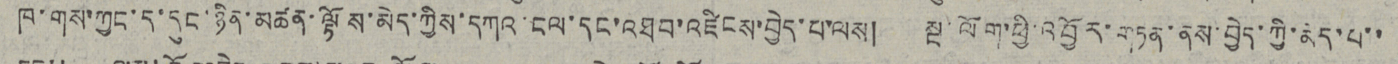ཁ་གས་ཀྱང་ད་དུང་ཉིན་མཚན་ལྟོས་མེད་ཀྱིས་དཀའ་ངལ་དང་འཐབ་འཛིངས་བྱེད་པ་ལས། སྔ་ལོག་ཕྱི་འབྱོར་གཏན་ནས་བྱེད་ཀྱི་མེད་པ་་
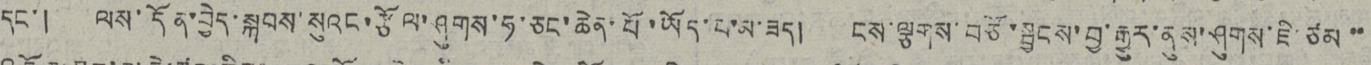དང་། ལས་དོན་བྱེད་སྐབས་སུའང་རྩོལ་ཤུགས་ཧ་ཅང་ཆེན་པོ་ཡོད་པ་མ་ཟད། ངས་ལྕགས་བཅོ་སྦྱངས་བྱ་རྒྱུར་ནུས་ཤུགས་ཇི་ཙམ་་
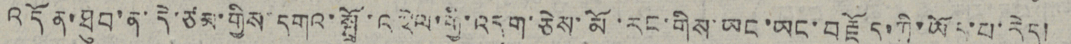འདོན་ཐུབ་ན་དེ་ཙམ་གྱིས་དགའ་སྤྲོ་འཕེལ་གྱི་འདུག་ཅེས་མོ་རང་གིས་ཡང་ཡང་བརྗོད་ཀྱི་ཡོད་པ་རེད།
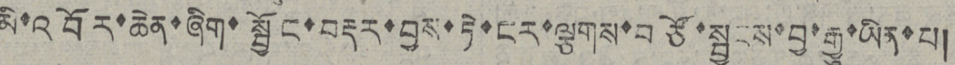མི་འབོར་ཆེན་ཞིག་སྦྱོང་བརྡར་བྱས་ཏེ་ངར་ལྕགས་བཙོ་སྦྱངས་བྱ་རྒྱུ་ཡིན་པ།
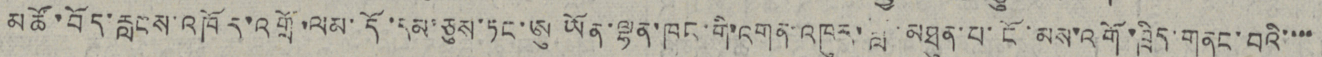ཚོ་བོད་རླངས་འཁོར་འགྲོ་ལམ་དོ་དམ་ཅུས་ཏང་ཨུ ཡོན་ལྷན་ཁང་གི་འགན་འཁུར་བླ་མཐུན་པ་ངོ་མས་འགོ་ཁྲིད་གནང་བའི་་་་
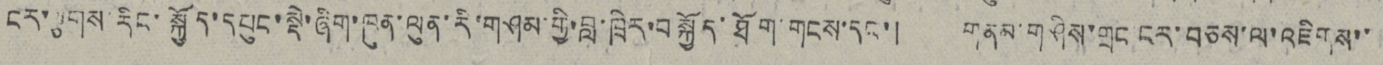ངར་ལྕགས་རིང་སྐྱོད་དཔུང་སྡེ་ཞིག་ཁུན་ལུན་རི་གཤམ་གྱི་བླ་ཁྲིར་བསྐྱོད་ཐོག་གངས་དང་། གནམ་གཤིས་གྲང་ངར་བཅས་ལ་འཇིགས་་
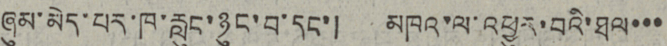ཞུམ་མེད་པར་ཁ་རླུང་ཉུང་བ་དང་། མཁའ་ལ་འཕྱུར་བའི་ཐལ་་་
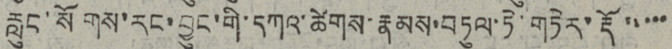རླུང་སོགས་རང་བྱུང་གི་དཀའ་ཚེགས་རྣམས་བཏུལ་ཏེ་གཏེར་རྡོ་་་་་
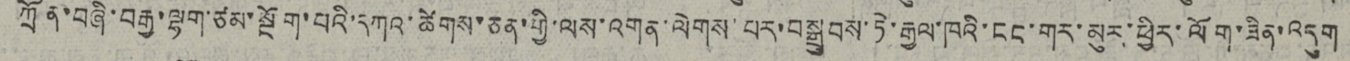ཀྲོན་བཞི་བརྒྱ་ལྷག་ཙམ་སྔོག་པའི་དཀའ་ཚེགས་ཅན་གྱི་ལས་འགན་ལེགས་པར་བསྒྲུབས་ཏེ་རྒྱལ་ཁའི་ངང་གར་མུར་ཕྱིར་ལོག་ཟིན་འདུག
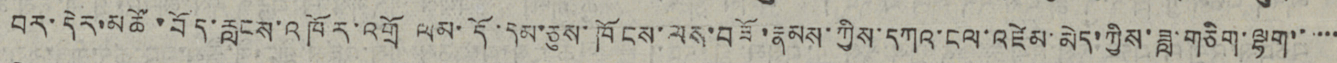བར་དེར་མཚོ་བོད་རླངས་འཁོར་འགྲོ ལམ་དོ་དམ་ཅུས་ཁོངས་ལས་བཟོ་རྣམས་ཀྱིས་དཀའ་ངལ་འཛེམ་མེད་ཀྱིས་ཟླ་གཅིག་ལྷག་་་་་
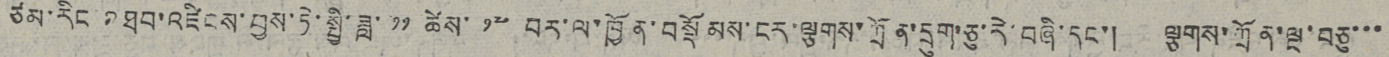ཙམ་རིང་མཐབ་འཛིངས་བྱས་ཏེ་སྤྱི་ཟླ་ ༡༡ ཚེས་ ༡༧ བར་ལ་ཁྱོན་བསྡོམས་ངར་ལྕགས་ཀྲོན་དྲུག་ཅུ་རེ་བཞི་དང་། ལྕགས་ཀྲོན་ལྔ་བཅུ་་་
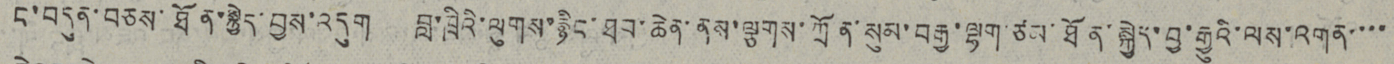ང་བདུན་བཅས་ཐོན་སྐྱེད་བྱས་འདུག བླ་ཁྲིའི་ལུགས་རྙིང་ཐབ་ཆེན་ནས་ལྕགས་ཀྲོན་སུམ་བརྒྱ་ལྷག་ཙམ་ཐོན་སྐྱེད་བྱ་རྒྱུའི་ལས་འགན་་་་
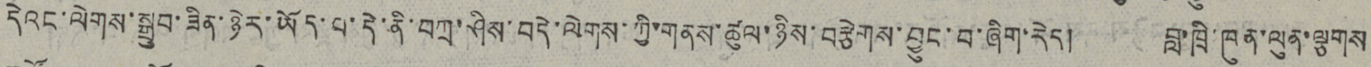དེའང་ལེགས་སྒྲུབ་ཟིན་ཉེར་ཡོད་པ་དེ་ནི་བཀྲ་ཤིས་བདེ་ལེགས་ཀྱི་གནས་ཚུལ་ཉིས་བརྩེགས་བྱུང་བ་ཞིག་རེད། བླ་ཁྲི་ཁུན་ལུན་ལྕགས་
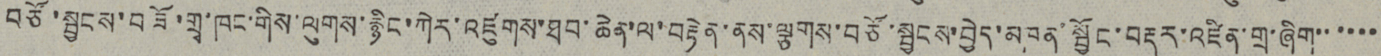བཙོ་སྦྱངས་བཟོ་གྲྭ་ཁང་གིས་ལུགས་རྙིང་ཀེར་འཛུགས་ཐུབ་ཆེན་ལ་བརྟེན་ནས་ལྕགས་བཙོ་སྦྱངས་བྱེད་མཁན་སྦྱོང་བརྡར་འཛིན་གྲ་ཞིག་་་་་་
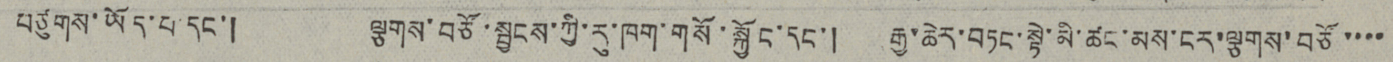ཙུགས་ཡོད་པ་དང་། ལྕགས་བཙོ་སྦྱངས་ཀྱི་རུ་ཁག་གསོ་སྐྱོང་དང་། རྒྱ་ཆེར་བཏང་སྟེ་མི་ཚང་མས་ངར་ལྕགས་བཙོ་་་་་
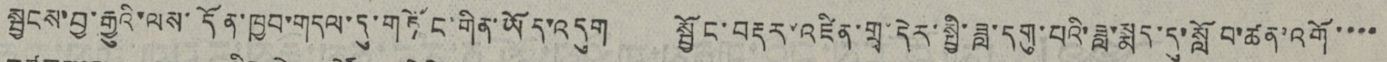སྦྱངས་བྱ་རྒྱུའི་ལས་དོན་ཁྱབ་གདལ་དུ་གཏོང་གིན་ཡོད་འདུག སྦྱོང་བརྡར་འཛིན་གྲྭ་དེར་སྤྱི་ཟླ་དགུ་པའི་ཟླ་སྨད་དུ་སློབ་ཚན་འགོ་་་་
